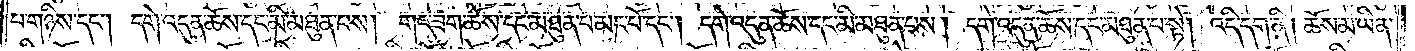པ་གཉིས་དང༌། དགེ་འདུན་ཆོས་དང་མི་མཐུན་པས། གང་ཟག་ཆོས་དང་མཐུན་པ་མང་པོ་དང༌། དགེ་འདུན་ཆོས་དང་མི་མཐུན་པས། དགེ་འདུན་ཆོས་དང་མཐུན་པ་སྟེ། འདི་དག་ནི། ཆོས་མ་ཡིན་
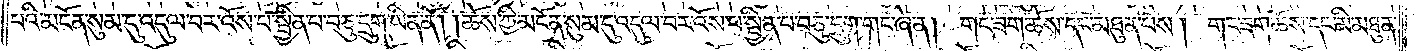པའི་མངོན་སུམ་དུ་འདུལ་བར་འོས་པ་སྦྱིན་པ་བཅུ་དྲུག་ཡིན་ནོ། །ཆོས་ཀྱི་མངོན་སུམ་དུ་འདུལ་བར་འོས་པ་སྦྱིན་པ་བཅུ་དྲུག་གང་ཞེ་ན། གང་ཟག་ཆོས་དང་མཐུན་པས། གང་ཟག་ཆོས་དང་མི་མཐུན་
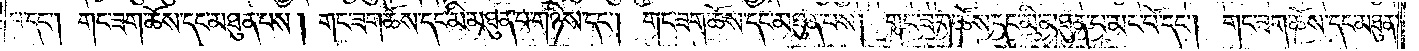པ་དང༌། གང་ཟག་ཆོས་དང་མཐུན་པས། གང་ཟག་ཆོས་དང་མི་མཐུན་པ་གཉིས་དང༌། གང་ཟག་ཆོས་དང་མཐུན་པས། གང་ཟག་ཆོས་དང་མི་མཐུན་པ་མང་པོ་དང༌། གང་ཟག་ཆོས་དང་མཐུན་
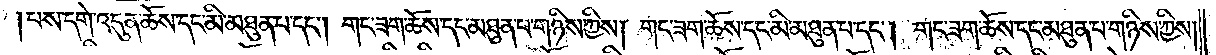པས་དགེ་འདུན་ཆོས་དང་མི་མཐུན་པ་དང༌། གང་ཟག་ཆོས་དང་མཐུན་པ་གཉིས་ཀྱིས། གང་ཟག་ཆོས་དང་མི་མཐུན་པ་དང༌། གང་ཟག་ཆོས་དང་མཐུན་པ་གཉིས་ཀྱིས།
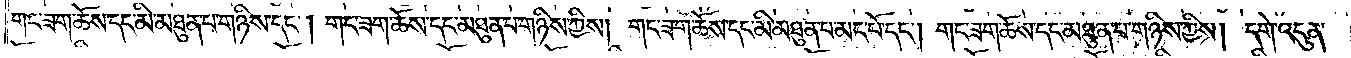གང་ཟག་ཆོས་དང་མི་མཐུན་པ་གཉིས་དང༌། གང་ཟག་ཆོས་དང་མཐུན་པ་གཉིས་ཀྱིས། གང་ཟག་ཆོས་དང་མི་མཐུན་པ་མང་པོ་དང༌། གང་ཟག་ཆོས་དང་མཐུན་པ་གཉིས་ཀྱིས། དགེ་འདུན་
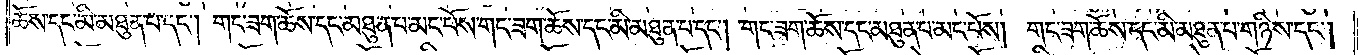ཆོས་དང་མི་མཐུན་པ་དང༌། གང་ཟག་ཆོས་དང་མཐུན་པ་མང་པོས་གང་ཟག་ཆོས་དང་མི་མཐུན་པ་དང༌། གང་ཟག་ཆོས་དང་མཐུན་པ་མང་པོས། གང་ཟག་ཆོས་དང་མི་མཐུན་པ་གཉིས་དང༌།
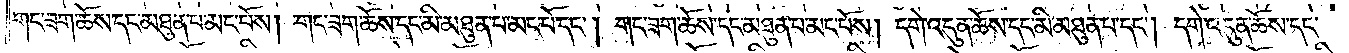གང་ཟག་ཆོས་དང་མཐུན་པ་མང་པོས། གང་ཟག་ཆོས་དང་མི་མཐུན་པ་མང་པོ་དང༌། གང་ཟག་ཆོས་དང་མཐུན་པ་མང་པོས། དགེ་འདུན་ཆོས་དང་མི་མཐུན་པ་དང༌། དགེ་འདུན་ཆོས་དང་
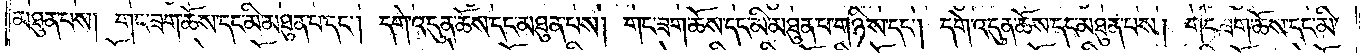མཐུན་པས། གང་ཟག་ཆོས་དང་མི་མཐུན་པ་དང༌། དགེ་འདུན་ཆོས་དང་མཐུན་པས། གང་ཟག་ཆོས་དང་མི་མཐུན་པ་གཉིས་དང༌། དགེ་འདུན་ཆོས་དང་མཐུན་པས། གང་ཟག་ཆོས་དང་མི་
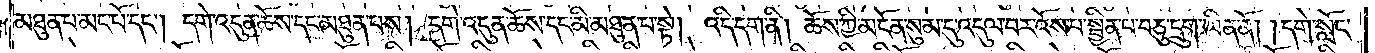མཐུན་པ་མང་པོ་དང༌། དགེ་འདུན་ཆོས་དང་མཐུན་པས། དགེ་འདུན་ཆོས་དང་མི་མཐུན་པ་སྟེ། འདི་དག་ནི། ཆོས་ཀྱི་མངོན་སུམ་དུ་འདུལ་བར་འོས་པ་སྦྱིན་པ་བཅུ་དྲུག་ཡིན་ནོ། །དགེ་སློང་
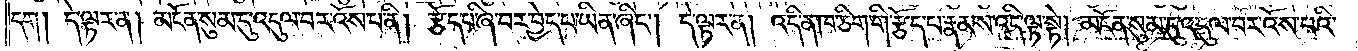དག། དེ་ལྟར་ན། མངོན་སུམ་དུ་འདུལ་བར་འོས་པ་ནི། རྩོད་པ་ཞི་བར་བྱེད་པ་ཡིན་ཞིང༌། དེ་ལྟར་ན། འདི་ན་ཁ་ཅིག་གི་རྩོད་པ་རྣམས་འདི་ལྟ་སྟེ། མངོན་སུམ་དུ་འདུལ་བར་འོས་པའི་
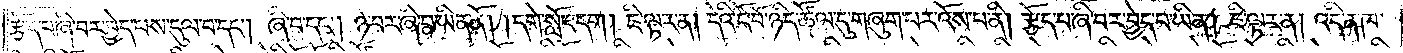རྩོད་པ་ཞི་བར་བྱེད་པས་དུལ་བ་དང༌། ཞི་བ་དང༌། ཉེ་བར་ཞི་བ་ཡིན་ནོ། །དགེ་སློང་དག། ཇི་ལྟར་ན། དེའི་ངོ་བོ་ཉིད་ཚོལ་དུ་གཞུག་པར་འོས་པ་ནི། རྩོད་པ་ཞི་བར་བྱེད་པ་ཡིན། ཇི་ལྟར་ན། འདི་ན་ཁ་
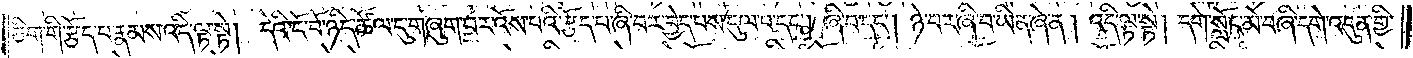ཅིག་གི་རྩོད་པ་རྣམས་འདི་ལྟ་སྟེ། དེའི་ངོ་བོ་ཉིད་ཚོལ་དུ་གཞུག་པར་འོས་པའི་རྩོད་པ་ཞི་བར་བྱེད་པས་དུལ་བ་དང༌། ཞི་བ་དང༌། ཉེ་བར་ཞི་བ་ཡིན་ཞེ་ན། འདི་ལྟ་སྟེ། དགེ་སློང་མེ་བཞི་དགེ་འདུན་གྱི་
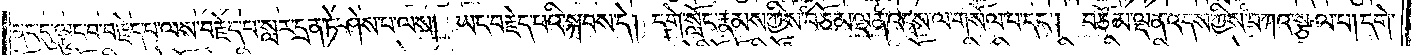ནང་དུ་ལྟུང་བ་བརྗེད་པ་ལས་བརྗེད་པ་སླར་དྲན་ཏེ་ཤེས་པ་ལས། ཡང་བརྗེད་པའི་སྐབས་དེ། དགེ་སློང་རྣམས་ཀྱིས་བཅོམ་ལྡན་འདས་ལ་གསོལ་པ་དང༌། བཅོམ་ལྡན་འདས་ཀྱིས་བཀའ་སྩལ་པ། དགེ་
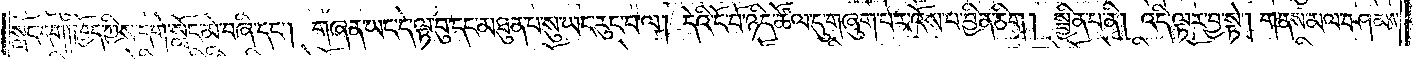སློང་དག། ཁྱོད་ཀྱིས་དགེ་སློང་མེ་བཞི་དང༌། གཞན་ཡང་དེ་ལྟ་བུ་དང་མཐུན་པ་སུ་ཡང་རུང་བ་ལ། དེའི་ངོ་བོ་ཉིད་ཚོལ་དུ་གཞུག་པར་འོས་པ་བྱིན་ཅིག། སྦྱིན་པ་ནི། འདི་ལྟར་བྱ་སྟེ། གནས་མལ་བཤམ་
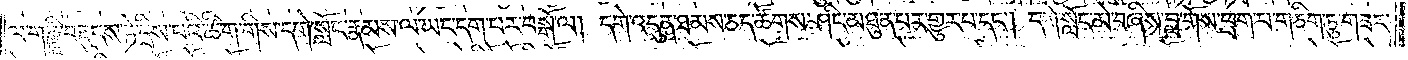ལ་གཎྜཱི་བརྡུངས་ཏེ་དྲིས་པའི་ཚིག་གིས་དགེ་སློང་རྣམས་ལ་ཡང་དག་པར་བསྒོ་ལ། དགེ་འདུན་ཐམས་ཅད་ཚོགས་ཤིང་མཐུན་པར་གྱུར་པ་དང༌། དགེ་སློང་མེ་བཞིས་བླ་གོས་ཕྲག་པ་གཅིག་ཏུ་གཟར་
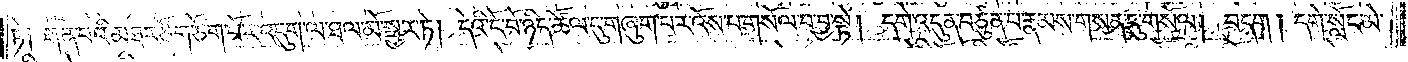ཏེ། རྒན་པའི་མཐར་ཙོག་ཙོག་པོར་འདུག་ལ་ཐལ་མོ་སྦྱར་ཏེ། དེའི་ངོ་བོ་ཉིད་ཚོལ་དུ་གཞུག་པར་འོས་པ་གསོལ་བ་བྱ་སྟེ། དགེ་འདུན་བཙུན་པ་རྣམས་གསན་དུ་གསོལ། བདག། དགེ་སློང་མེ་
